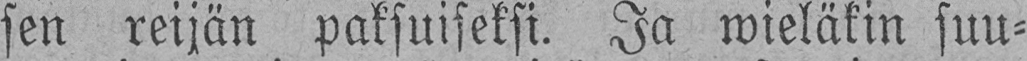sen reijän paksuiseksi. Ja wieläkin suu-
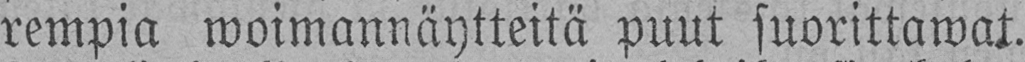rempia woimannäytteitä puut suorittawat.
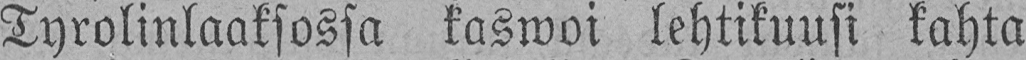Tyrolinlaaksossa kaswoi lehtikuusi kahta
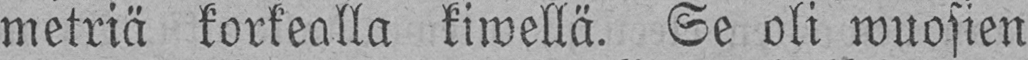metriä korkealla kiwellä. Se oli wuosien
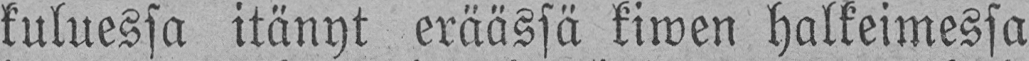kuluessa itänyt eräässä kiwen halkeimessa
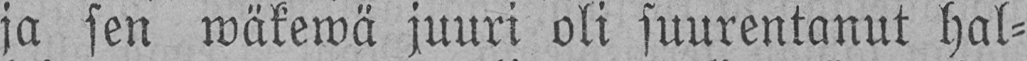ja sen wäkewä juuri oli suurentanut hal-
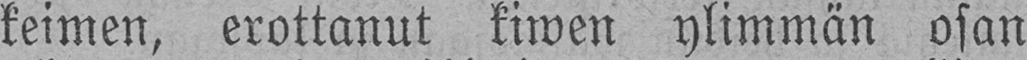keimen, erottanut kiwen ylimmän osan
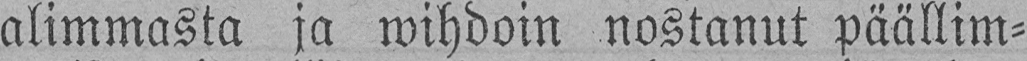alimmasta ja wihdoin nostanut päällim-
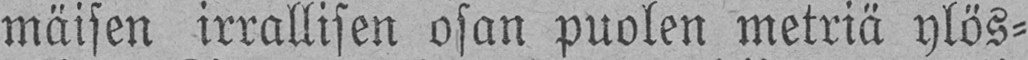mäisen irrallisen osan puolen metriä ylös-
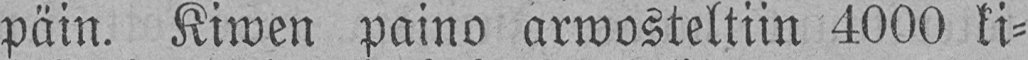päin. Kiwen paino arwosteltiin 4000 ki-
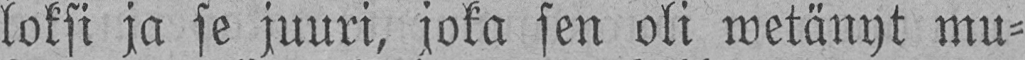loksi ja se juuri, joka sen oli wetänyt mu-
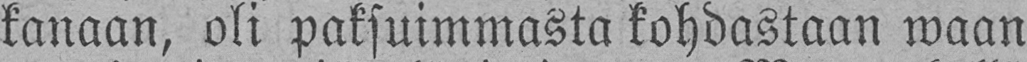kanaan, oli paksuimmasta kohdastaan waan
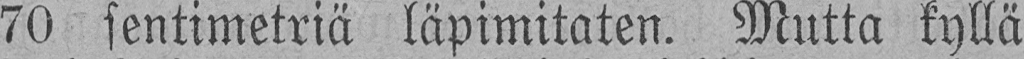70 sentimetriä läpimitaten. Mutta kyllä
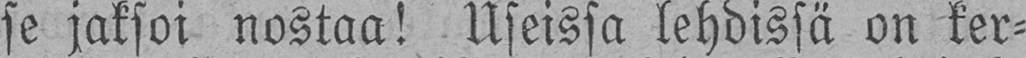se jaksoi nostaa! Useissa lehdissä on ker-
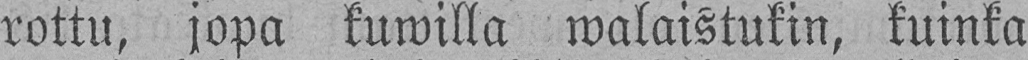rottu, jopa kuwilla walaistukin, kuinka
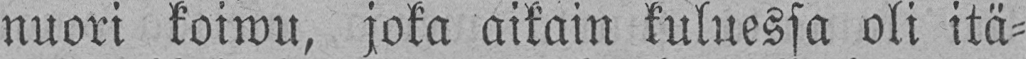nuori koiwu, joka aikain kuluessa oli itä-
